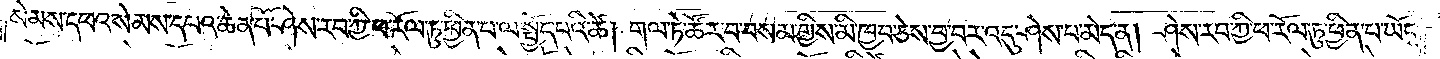སེམས་དཔའ་སེམས་དཔའ་ཆེན་པོ་ཤེས་རབ་ཀྱི་ཕ་རོལ་ཏུ་ཕྱིན་པ་ལ་སྤྱོད་པའི་ཚེ། གལ་ཏེ་ཚོར་བ་བསམ་གྱིས་མི་ཁྱབ་ཅེས་བྱ་བར་འདུ་ཤེས་པ་མེད་ན། ཤེས་རབ་ཀྱི་ཕ་རོལ་ཏུ་ཕྱིན་པ་ཡོངས་
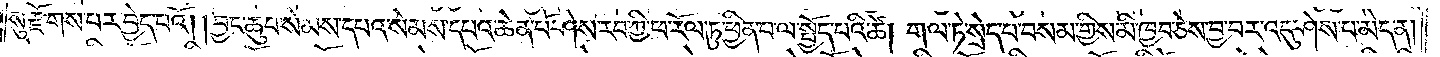སུ་རྫོགས་པར་བྱེད་པའོ། །བྱང་ཆུབ་སེམས་དཔའ་སེམས་དཔའ་ཆེན་པོ་ཤེས་རབ་ཀྱི་ཕ་རོལ་ཏུ་ཕྱིན་པ་ལ་སྤྱོད་པའི་ཚེ། གལ་ཏེ་སྲེད་པ་བསམ་གྱིས་མི་ཁྱབ་ཅེས་བྱ་བར་འདུ་ཤེས་པ་མེད་ན།
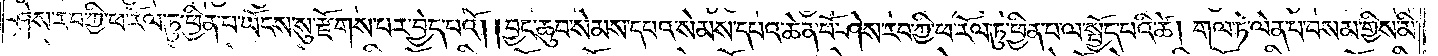ཤེས་རབ་ཀྱི་ཕ་རོལ་ཏུ་ཕྱིན་པ་ཡོངས་སུ་རྫོགས་པར་བྱེད་པའོ། །བྱང་ཆུབ་སེམས་དཔའ་སེམས་དཔའ་ཆེན་པོ་ཤེས་རབ་ཀྱི་ཕ་རོལ་ཏུ་ཕྱིན་པ་ལ་སྤྱོད་པའི་ཚེ། གལ་ཏེ་ལེན་པ་བསམ་གྱིས་མི་
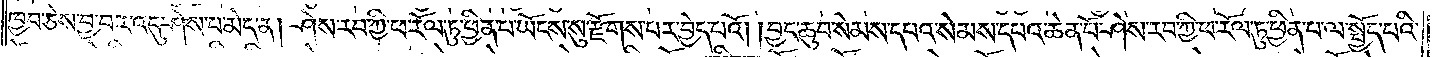ཁྱབ་ཅེས་བྱ་བར་འདུ་ཤེས་པ་མེད་ན། ཤེས་རབ་ཀྱི་ཕ་རོལ་ཏུ་ཕྱིན་པ་ཡོངས་སུ་རྫོགས་པར་བྱེད་པའོ། །བྱང་ཆུབ་སེམས་དཔའ་སེམས་དཔའ་ཆེན་པོ་ཤེས་རབ་ཀྱི་ཕ་རོལ་ཏུ་ཕྱིན་པ་ལ་སྤྱོད་པའི་
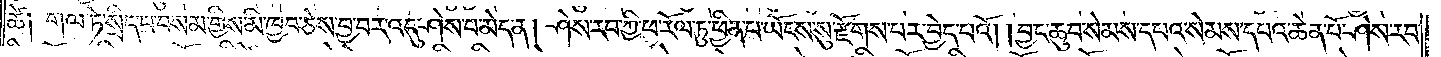ཚེ༑ གལ་ཏེ་སྲིད་པ་བསམ་གྱིས་མི་ཁྱབ་ཅེས་བྱ་བར་འདུ་ཤེས་པ་མེད་ན། ཤེས་རབ་ཀྱི་ཕ་རོལ་ཏུ་ཕྱིན་པ་ཡོངས་སུ་རྫོགས་པར་བྱེད་པའོ། །བྱང་ཆུབ་སེམས་དཔའ་སེམས་དཔའ་ཆེན་པོ་ཤེས་རབ་
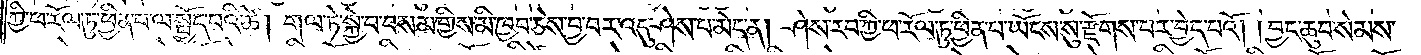ཀྱི་ཕ་རོལ་ཏུ་ཕྱིན་པ་ལ་སྤྱོད་པའི་ཚེ། གལ་ཏེ་སྐྱེ་བ་བསམ་གྱིས་མི་ཁྱབ་ཅེས་བྱ་བར་འདུ་ཤེས་པ་མེད་ན། ཤེས་རབ་ཀྱི་ཕ་རོལ་ཏུ་ཕྱིན་པ་ཡོངས་སུ་རྫོགས་པར་བྱེད་པའོ། །བྱང་ཆུབ་སེམས་
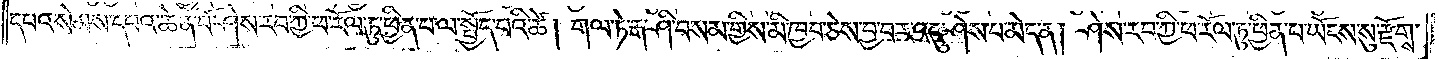དཔའ་སེམས་དཔའ་ཆེན་པོ་ཤེས་རབ་ཀྱི་ཕ་རོལ་ཏུ་ཕྱིན་པ་ལ་སྤྱོད་པའི་ཚེ། གལ་ཏེ་རྒ་ཤི་བསམ་གྱིས་མི་ཁྱབ་ཅེས་བྱ་བར་འདུ་ཤེས་པ་མེད་ན། ཤེས་རབ་ཀྱི་ཕ་རོལ་ཏུ་ཕྱིན་པ་ཡོངས་སུ་རྫོགས་
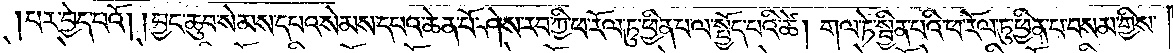པར་བྱེད་པའོ། །བྱང་ཆུབ་སེམས་དཔའ་སེམས་དཔའ་ཆེན་པོ་ཤེས་རབ་ཀྱི་ཕ་རོལ་ཏུ་ཕྱིན་པ་ལ་སྤྱོད་པའི་ཚེ། གལ་ཏེ་སྦྱིན་པའི་ཕ་རོལ་ཏུ་ཕྱིན་པ་བསམ་གྱིས་
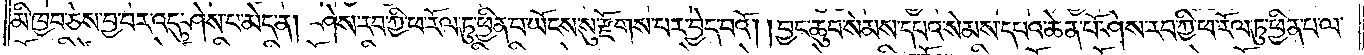མི་ཁྱབ་ཅེས་བྱ་བར་འདུ་ཤེས་པ་མེད་ན། ཤེས་རབ་ཀྱི་ཕ་རོལ་ཏུ་ཕྱིན་པ་ཡོངས་སུ་རྫོགས་པར་བྱེད་པའོ། །བྱང་ཆུབ་སེམས་དཔའ་སེམས་དཔའ་ཆེན་པོ་ཤེས་རབ་ཀྱི་ཕ་རོལ་ཏུ་ཕྱིན་པ་ལ་
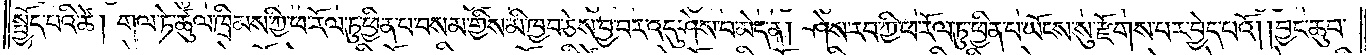སྤྱོད་པའི་ཚེ། གལ་ཏེ་ཚུལ་ཁྲིམས་ཀྱི་ཕ་རོལ་ཏུ་ཕྱིན་པ་བསམ་གྱིས་མི་ཁྱབ་ཅེས་བྱ་བར་འདུ་ཤེས་པ་མེད་ན། ཤེས་རབ་ཀྱི་ཕ་རོལ་ཏུ་ཕྱིན་པ་ཡོངས་སུ་རྫོགས་པར་བྱེད་པའོ། །བྱང་ཆུབ་
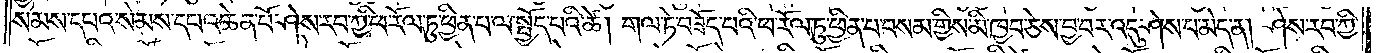སེམས་དཔའ་སེམས་དཔའ་ཆེན་པོ་ཤེས་རབ་ཀྱི་ཕ་རོལ་ཏུ་ཕྱིན་པ་ལ་སྤྱོད་པའི་ཚེ། གལ་ཏེ་བཟོད་པའི་ཕ་རོལ་ཏུ་ཕྱིན་པ་བསམ་གྱིས་མི་ཁྱབ་ཅེས་བྱ་བར་འདུ་ཤེས་པ་མེད་ན། ཤེས་རབ་ཀྱི་
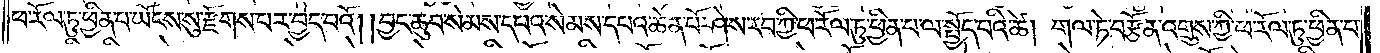ཕ་རོལ་ཏུ་ཕྱིན་པ་ཡོངས་སུ་རྫོགས་པར་བྱེད་པའོ། །བྱང་ཆུབ་སེམས་དཔའ་སེམས་དཔའ་ཆེན་པོ་ཤེས་རབ་ཀྱི་ཕ་རོལ་ཏུ་ཕྱིན་པ་ལ་སྤྱོད་པའི་ཚེ། གལ་ཏེ་བརྩོན་འགྲུས་ཀྱི་ཕ་རོལ་ཏུ་ཕྱིན་པ་
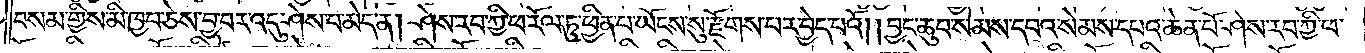བསམ་གྱིས་མི་ཁྱབ་ཅེས་བྱ་བར་འདུ་ཤེས་པ་མེད་ན། ཤེས་རབ་ཀྱི་ཕ་རོལ་ཏུ་ཕྱིན་པ་ཡོངས་སུ་རྫོགས་པར་བྱེད་པའོ། །བྱང་ཆུབ་སེམས་དཔའ་སེམས་དཔའ་ཆེན་པོ་ཤེས་རབ་ཀྱི་ཕ་
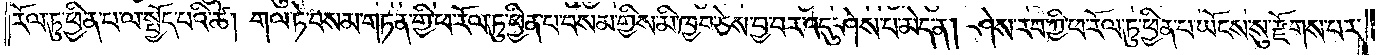རོལ་ཏུ་ཕྱིན་པ་ལ་སྤྱོད་པའི་ཚེ། གལ་ཏེ་བསམ་གཏན་གྱི་ཕ་རོལ་ཏུ་ཕྱིན་པ་བསམ་གྱིས་མི་ཁྱབ་ཅེས་བྱ་བར་འདུ་ཤེས་པ་མེད་ན། ཤེས་རབ་ཀྱི་ཕ་རོལ་ཏུ་ཕྱིན་པ་ཡོངས་སུ་རྫོགས་པར་
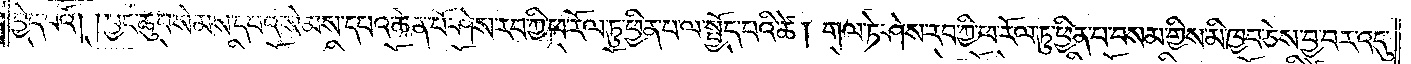བྱེད་པའོ། །བྱང་ཆུབ་སེམས་དཔའ་སེམས་དཔའ་ཆེན་པོ་ཤེས་རབ་ཀྱི་ཕ་རོལ་ཏུ་ཕྱིན་པ་ལ་སྤྱོད་པའི་ཚེ། གལ་ཏེ་ཤེས་རབ་ཀྱི་ཕ་རོལ་ཏུ་ཕྱིན་པ་བསམ་གྱིས་མི་ཁྱབ་ཅེས་བྱ་བར་འདུ་
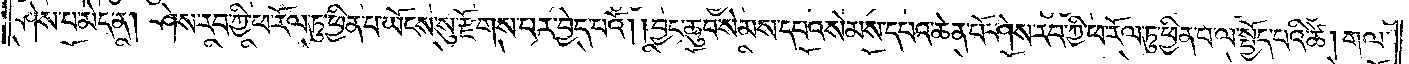ཤེས་པ་མེད་ན། ཤེས་རབ་ཀྱི་ཕ་རོལ་ཏུ་ཕྱིན་པ་ཡོངས་སུ་རྫོགས་པར་བྱེད་པའོ། །བྱང་ཆུབ་སེམས་དཔའ་སེམས་དཔའ་ཆེན་པོ་ཤེས་རབ་ཀྱི་ཕ་རོལ་ཏུ་ཕྱིན་པ་ལ་སྤྱོད་པའི་ཚེ། གལ་
